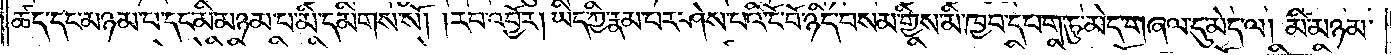ཚད་དང་མཉམ་པ་དང་མི་མཉམ་པ་མི་དམིགས་སོ། །རབ་འབྱོར། ཡིད་ཀྱི་རྣམ་པར་ཤེས་པའི་ངོ་བོ་ཉིད་བསམ་གྱིས་མི་ཁྱབ་དཔག་ཏུ་མེད་གཞལ་དུ་མེད་ལ། མི་མཉམ་
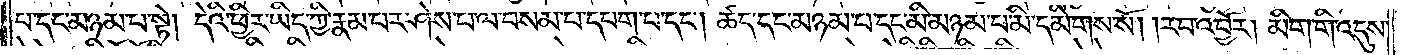པ་དང་མཉམ་པ་སྟེ། དེའི་ཕྱིར་ཡིད་ཀྱི་རྣམ་པར་ཤེས་པ་ལ་བསམ་པ་དང་དཔག་པ་དང༌། ཚད་དང་མཉམ་པ་དང་མི་མཉམ་པ་མི་དམིགས་སོ། །རབ་འབྱོར། མིག་གི་འདུས་
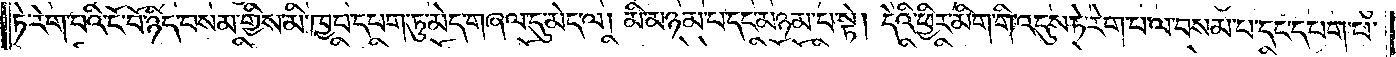ཏེ་རེག་པའི་ངོ་བོ་ཉིད་བསམ་གྱིས་མི་ཁྱབ་དཔག་ཏུ་མེད་གཞལ་དུ་མེད་ལ། མི་མཉམ་པ་དང་མཉམ་པ་སྟེ། དེའི་ཕྱིར་མིག་གི་འདུས་ཏེ་རེག་པ་ལ་བསམ་པ་དང་དཔག་པ་
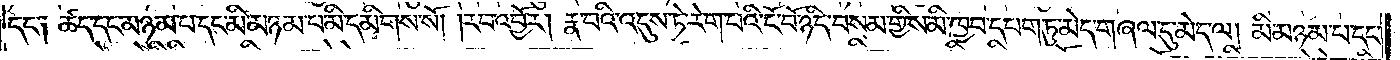དང༌། ཚད་དང་མཉམ་པ་དང་མི་མཉམ་པ་མི་དམིགས་སོ། །རབ་འབྱོར། རྣ་བའི་འདུས་ཏེ་རེག་པའི་ངོ་བོ་ཉིད་བསམ་གྱིས་མི་ཁྱབ་དཔག་ཏུ་མེད་གཞལ་དུ་མེད་ལ། མི་མཉམ་པ་དང་
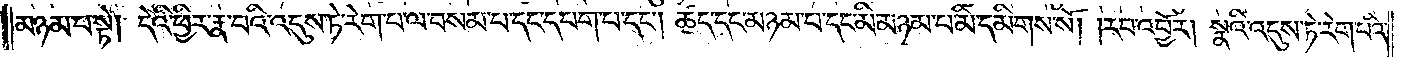མཉམ་པ་སྟེ། དེའི་ཕྱིར་རྣ་བའི་འདུས་ཏེ་རེག་པ་ལ་བསམ་པ་དང་དཔག་པ་དང༌། ཚད་དང་མཉམ་པ་དང་མི་མཉམ་པ་མི་དམིགས་སོ། །རབ་འབྱོར། སྣའི་འདུས་ཏེ་རེག་པའི་
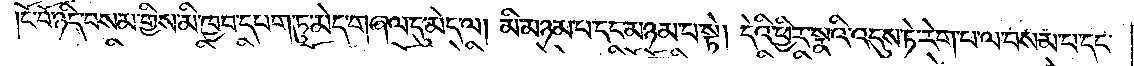ངོ་བོ་ཉིད་བསམ་གྱིས་མི་ཁྱབ་དཔག་ཏུ་མེད་གཞལ་དུ་མེད་ལ། མི་མཉམ་པ་དང་མཉམ་པ་སྟེ། དེའི་ཕྱིར་སྣའི་འདུས་ཏེ་རེག་པ་ལ་བསམ་པ་དང་
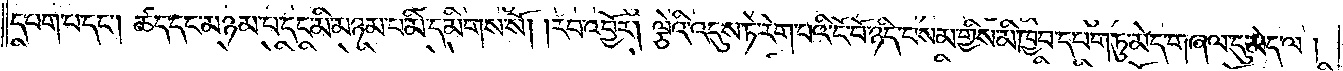དཔག་པ་དང༌། ཚད་དང་མཉམ་པ་དང་མི་མཉམ་པ་མི་དམིགས་སོ། །རབ་འབྱོར། ལྕེའི་འདུས་ཏེ་རེག་པའི་ངོ་བོ་ཉིད་བསམ་གྱིས་མི་ཁྱབ་དཔག་ཏུ་མེད་གཞལ་དུ་མེད་ལ།
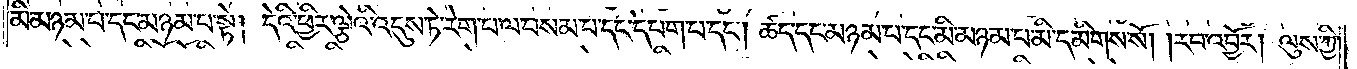མི་མཉམ་པ་དང་མཉམ་པ་སྟེ། དེའི་ཕྱིར་ལྕེའི་འདུས་ཏེ་རེག་པ་ལ་བསམ་པ་དང་དཔག་པ་དང༌། ཚད་དང་མཉམ་པ་དང་མི་མཉམ་པ་མི་དམིགས་སོ། །རབ་འབྱོར། ལུས་ཀྱི་
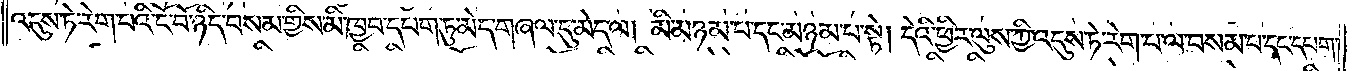འདུས་ཏེ་རེག་པའི་ངོ་བོ་ཉིད་བསམ་གྱིས་མི་ཁྱབ་དཔག་ཏུ་མེད་གཞལ་དུ་མེད་ལ། མི་མཉམ་པ་དང་མཉམ་པ་སྟེ། དེའི་ཕྱིར་ལུས་ཀྱི་འདུས་ཏེ་རེག་པ་ལ་བསམ་པ་དང་དཔག་
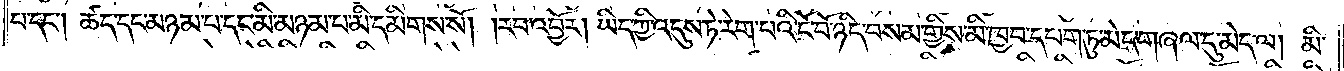པ་དང༌། ཚད་དང་མཉམ་པ་དང་མི་མཉམ་པ་མི་དམིགས་སོ། །རབ་འབྱོར། ཡིད་ཀྱི་འདུས་ཏེ་རེག་པའི་ངོ་བོ་ཉིད་བསམ་གྱིས་མི་ཁྱབ་དཔག་ཏུ་མེད་གཞལ་དུ་མེད་ལ། མི་
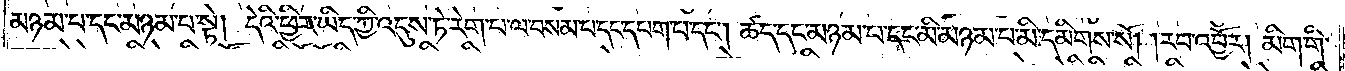མཉམ་པ་དང་མཉམ་པ་སྟེ། དེའི་ཕྱིར་ཡིད་ཀྱི་འདུས་ཏེ་རེག་པ་ལ་བསམ་པ་དང་དཔག་པ་དང༌། ཚད་དང་མཉམ་པ་དང་མི་མཉམ་པ་མི་དམིགས་སོ། །རབ་འབྱོར། མིག་གི་
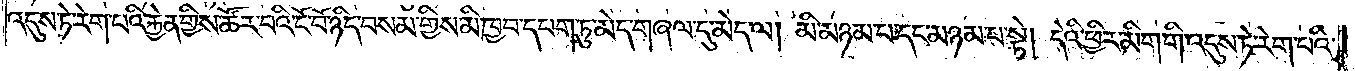འདུས་ཏེ་རེག་པའི་རྐྱེན་གྱིས་ཚོར་བའི་ངོ་བོ་ཉིད་བསམ་གྱིས་མི་ཁྱབ་དཔག་ཏུ་མེད་གཞལ་དུ་མེད་ལ། མི་མཉམ་པ་དང་མཉམ་པ་སྟེ། དེའི་ཕྱིར་མིག་གི་འདུས་ཏེ་རེག་པའི་
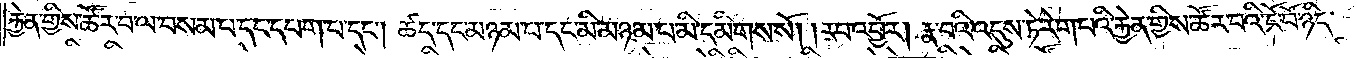རྐྱེན་གྱིས་ཚོར་བ་ལ་བསམ་པ་དང་དཔག་པ་དང༌། ཚད་དང་མཉམ་པ་དང་མི་མཉམ་པ་མི་དམིགས་སོ། །རབ་འབྱོར། རྣ་བའི་འདུས་ཏེ་རེག་པའི་རྐྱེན་གྱིས་ཚོར་བའི་ངོ་བོ་ཉིད་
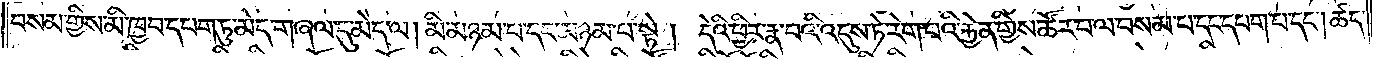བསམ་གྱིས་མི་ཁྱབ་དཔག་ཏུ་མེད་གཞལ་དུ་མེད་ལ། མི་མཉམ་པ་དང་མཉམ་པ་སྟེ། དེའི་ཕྱིར་རྣ་པའི་འདུས་ཏེ་རེག་པའི་རྐྱེན་གྱིས་ཚོར་བ་ལ་བསམ་པ་དང་དཔག་པ་དང༌། ཚད་
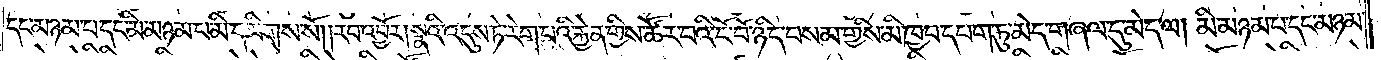དང་མཉམ་པ་དང་མི་མཉམ་པ་མི་དམིགས་སོ། །རབ་འབྱོར། སྣའི་འདུས་ཏེ་རེག་པའི་རྐྱེན་གྱིས་ཚོར་བའི་ངོ་བོ་ཉིད་བསམ་གྱིས་མི་ཁྱབ་དཔག་ཏུ་མེད་གཞལ་དུ་མེད་ལ། མི་མཉམ་པ་དང་མཉམ་
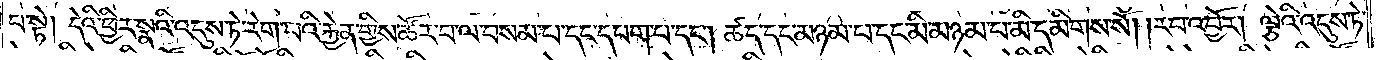པ་སྟེ། དེའི་ཕྱིར་སྣའི་འདུས་ཏེ་རེག་པའི་རྐྱེན་གྱིས་ཚོར་བ་ལ་བསམ་པ་དང་དཔག་པ་དང༌། ཚད་དང་མཉམ་པ་དང་མི་མཉམ་པ་མི་དམིགས་སོ། །རབ་འབྱོར། ལྕེའི་འདུས་ཏེ་
